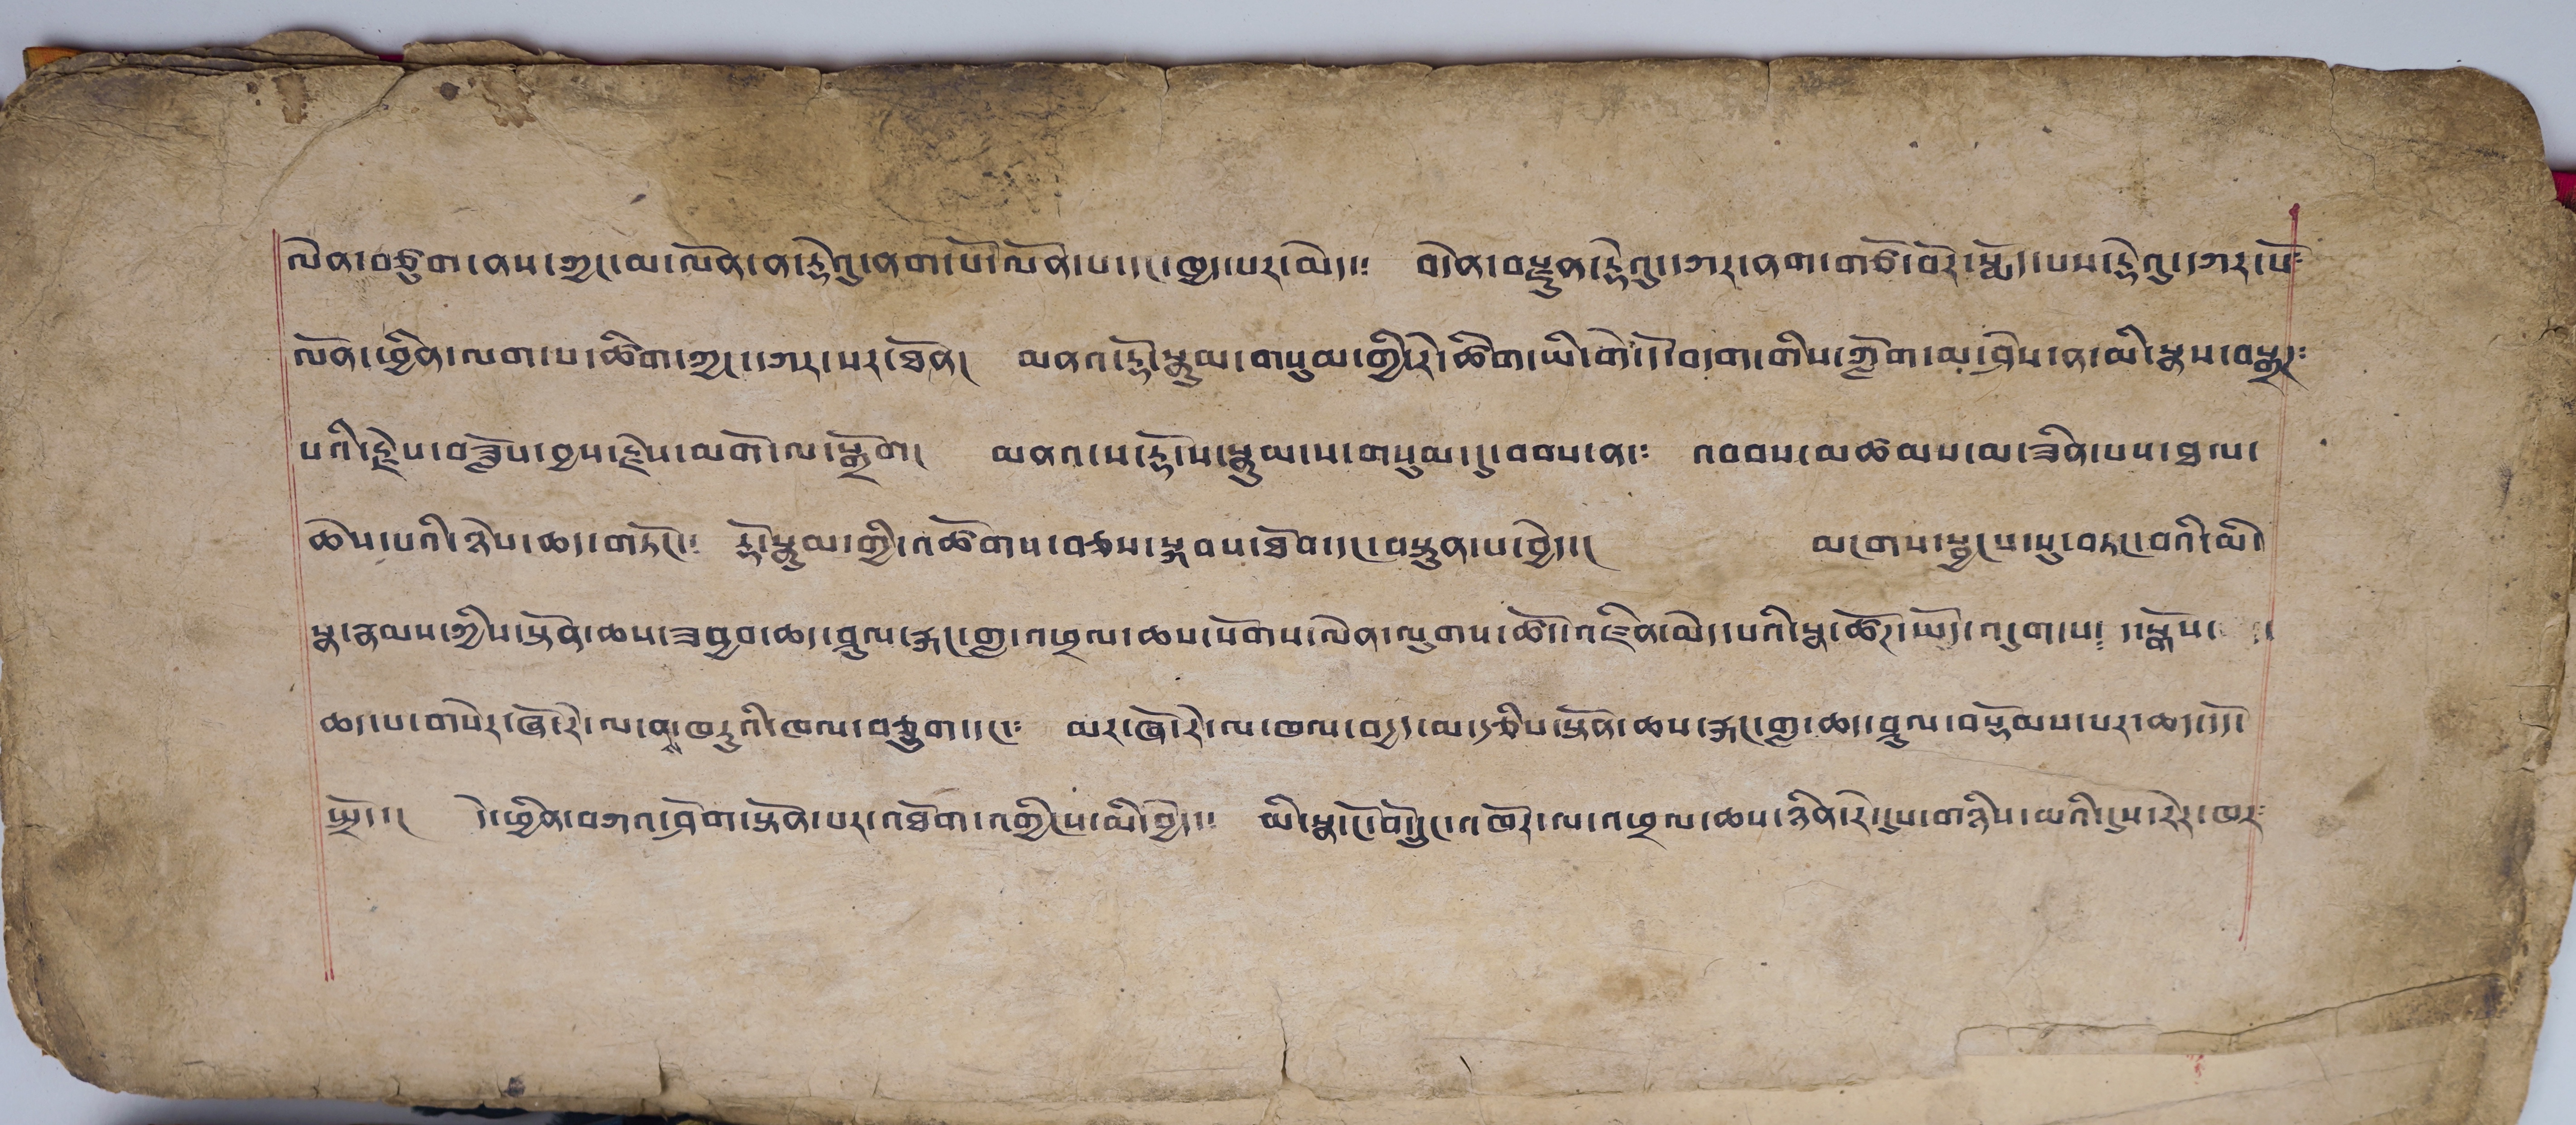ལེན་བཙུག་ནས་ཀྱང་མ་ལོན་ན་རྡེའུ་ནག་པོ་ལོན་པ་དང་ཁྱད་པར་མེད་༴ བདེན་བརྫུན་རྡེའུ་དཀར་ནག་གཙོ་བོར་སྨོད་པས་རྡེའུ་དཀར་པོ༴
ལོན་ཕྱིན་ལག་པ་ཚིག་ཀྱང་དཀར་པར་ཐོན། མནའ་རྡོ་སྣུམ་གསུམ་གྱི་རེ་ཚིག་ཡི་གེ་དོ་བདག་གིས་ཀློག་མ་ཤེས་ན་མི་སྣས་བསྒྲཊ༴
པའི་རྗེས་བཟློས་བྱས་རྗེས་མགོ་ལ་སྒྲོག། མནའ་ས་རྡོ་ས་སྣུམ་ས་གསུམ་དུ་བབས་ན་༴ འབབས་མཚམས་མ་ཟིན་པས་ཐལ་
ཆེས་པའི་ཉེས་ཆད་གཏོང་༴ རྡོ་སྣུམ་གྱི་འཚོགས་བཅས་སྐབས་ཐོབ་དང་བསྟུན་པ་བྱེད་། མངགས་སྦྱངས་སུ་བཏང་བའི་མི་
སྣ་རྣམས་ཀྱིས་སྟོན་ཆས་ཟབྱབ་ཆད་ཤུལ་རྐང་གླ་འཕྲལ་ཆས་སོགས་ལེན་ལུགས་ཚོད་འཛིན་མེད་པའི་སྣ་ཚོཊ་ཡོད་འདུག་པ་༴ ད་སྒོས་
ཆད་པ་གསེར་ཞོ་རེ་ལ་ནས་ཁརུའི་ཁལ་བཅུག་དང་༴ མར་ཞོ་རེ་ལ་ཁལ་བདྱད་མ་རྩིས་སྟོན་ཆས་རྐང་གླ་ཆད་ཤུལ་བསྡོམས་པར་ཆད་དོད་
སྤྲོད་། དེ་ཕྱིན་བཀའ་ཤོག་སྟོན་པར་འཐོག་འགྱིངས་མི་བྱེད་༴ མི་སྣ་ངོ་བོ་དྲུང་འཁོར་ལ་འཕྲལ་ཆས་ཉིན་རེ་དུས་གཉིས་མའི་དུས་རེར་ཁར༴
